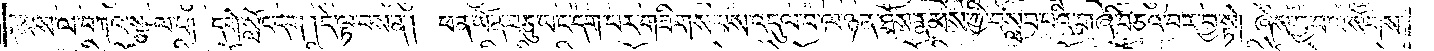རྣམས་ལ་བཀའ་སྩལ་པ། དགེ་སློང་དག །དེ་ལྟ་བས་ན། ཕན་ཡོན་བཅུ་ཡང་དག་པར་གཟིགས་པས་འདུལ་བ་ལ་ཉན་ཐོས་རྣམས་ཀྱི་བསླབ་པའི་གཞི་བཅའ་བར་བྱ་སྟེ། ཞེས་བྱ་བ་ལ་སོགས་
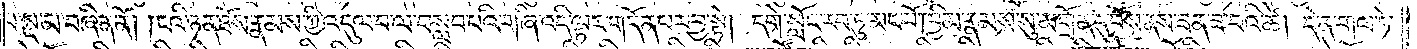པ་སྔ་མ་བཞིན་ནོ། ངའི་ཉན་ཐོས་རྣམས་ཀྱི་འདུལ་བ་ལ་བསླབ་པའི་གཞི་འདི་ལྟར་གདོན་པར་བྱ་སྟེ། དགེ་སློང་རབ་ཏུ་མང་པོ་ཁྱིམ་རྣམས་སུ་མགྲོན་དུ་བོས་ནས་ཟན་ཟ་བའི་ཚེ། དེ་ན་གལ་ཏེ་
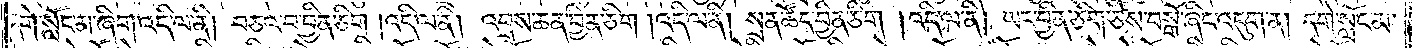དགེ་སློང་མ་ཞིག་འདི་ལ་ནི། བཅའ་བ་བྱིན་ཅིག །འདི་ལ་ནི། འབྲས་ཆན་བྱིན་ཅིག །འདི་ལ་ནི། སྲན་ཚོད་བྱིན་ཅིག །འདི་ལ་ནི། ཡང་བྱིན་ཅིག་ཅེས་བསྒོ་ཞིང་འདུག་ན། དགེ་སློང་མ་
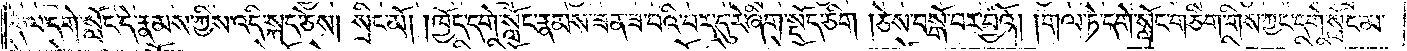དེ་ལ་དགེ་སློང་དེ་རྣམས་ཀྱིས་འདི་སྐད་ཅེས། སྲིང་མོ། །ཁྱོད་དགེ་སློང་རྣམས་ཟན་ཟ་བའི་བར་དུ་རེ་ཞིག་སྡོད་ཅིག །ཅེས་བསྒོ་བར་བྱའོ། །གལ་ཏེ་དགེ་སློང་གཅིག་གིས་ཀྱང་དགེ་སློང་མ་
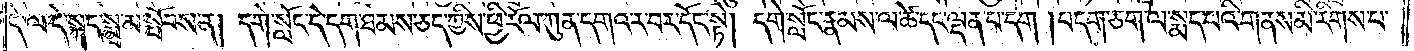དེ་ལ་དེ་སྐད་སྨྲ་མ་སྤོབས་ན། དགེ་སློང་དེ་དག་ཐམས་ཅད་ཀྱིས་ཕྱི་རོལ་ཀུན་དགའ་ར་བར་དོང་སྟེ། དགེ་སློང་རྣམས་ལ་ཚེ་དང་ལྡན་པ་དག །བདག་ཅག་ལ་སྨད་པའི་གནས་མི་རིགས་པ་
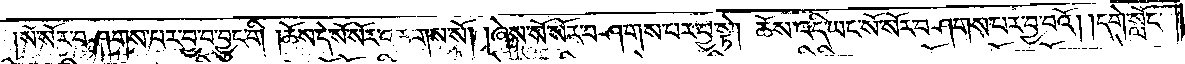སོ་སོར་བཤགས་པར་བྱ་བ་བྱུང་གི །ཆོས་དེ་སོ་སོར་འཆགས་སོ། །ཞེས་སོ་སོར་བཤགས་པར་བྱ་སྟེ། ཆོས་འདི་ཡང་སོ་སོར་བཤགས་པར་བྱ་བའོ། །དགེ་སློང་
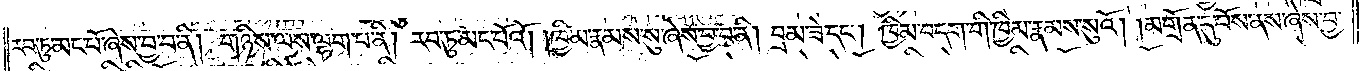རབ་ཏུ་མང་པོ་ཞེས་བྱ་བ་ནི། །གཉིས་ལས་ལྷག་པ་ནི། རབ་ཏུ་མང་པོའོ། །ཁྱིམ་རྣམས་སུ་ཞེས་བྱ་བ་ནི། བྲམ་ཟེ་དང༌། ཁྱིམ་བདག་གི་ཁྱིམ་རྣམས་སུའོ། །མགྲོན་དུ་བོས་ནས་ཞེས་བྱ་
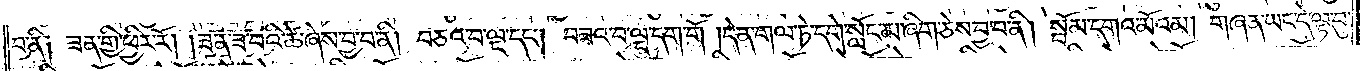བ་ནི། ཟན་གྱི་ཕྱིར་རོ། །ཟན་ཟ་བའི་ཚེ་ཞེས་བྱ་བ་ནི། བཅའ་བ་ལྔ་དང༌། བཟའ་བ་ལྔ་དག་གོ །དེ་ན་གལ་ཏེ་དགེ་སློང་མ་ཞིག་ཅེས་བྱ་བ་ནི། སྦོམ་དགའ་མོའམ། གཞན་ཡང་དེ་ལྟ་བུ་
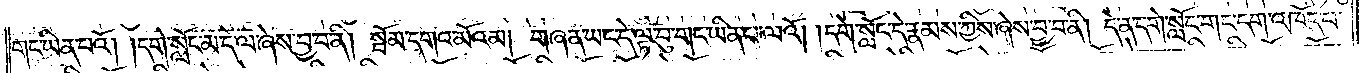གང་ཡིན་པའོ། །དགེ་སློང་མ་དེ་ལ་ཞེས་བྱ་བ་ནི། སྦོམ་དགའ་མོའམ། གཞན་ཡང་དེ་ལྟ་བུ་གང་ཡིན་པ་ལའོ། །དགེ་སློང་དེ་རྣམས་ཀྱིས་ཞེས་བྱ་བ་ནི། དེ་ན་དགེ་སློང་གང་དག་འཁོད་པ་
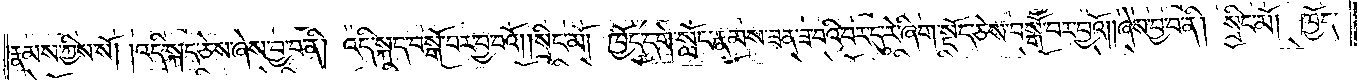རྣམས་ཀྱིས་སོ། །འདི་སྐད་ཅེས་ཞེས་བྱ་བ་ནི། འདི་སྐད་བསྒོ་བར་བྱ་བའོ། །སྲིང་མོ། ཁྱོད་དགེ་སློང་རྣམས་ཟན་ཟ་བའི་བར་དུ་རེ་ཞིག་སྡོད་ཅེས་བསྒོ་བར་བྱའོ། །ཞེས་བྱ་བ་ནི། སྲིང་མོ། ཁྱོད་
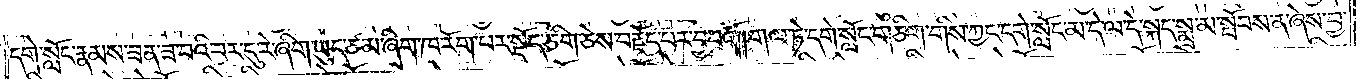དགེ་སློང་རྣམས་ཟན་ཟ་བའི་བར་དུ་རེ་ཞིག་ཡུད་ཙམ་ཞིག་ཁ་རོག་པར་སྡོད་ཅིག་ཅེས་བརྗོད་པར་བྱ་བའོ། །གལ་ཏེ་དགེ་སློང་གཅིག་གིས་ཀྱང་དགེ་སློང་མ་དེ་ལ་དེ་སྐད་སྨྲ་མ་སྤོབས་ན་ཞེས་བྱ་
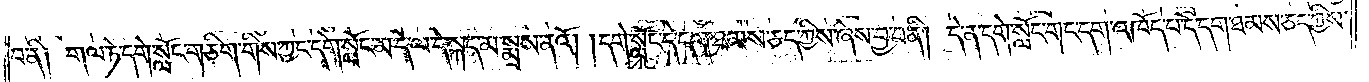བ་ནི། གལ་ཏེ་དགེ་སློང་གཅིག་གིས་ཀྱང་དགེ་སློང་མ་དེ་ལ་དེ་སྐད་མ་སྨྲས་ནའོ། །དགེ་སློང་དེ་དག་ཐམས་ཅད་ཀྱིས་ཞེས་བྱ་བ་ནི། དེ་ན་དགེ་སློང་གང་དག་འཁོད་པ་དེ་དག་ཐམས་ཅད་ཀྱིས་
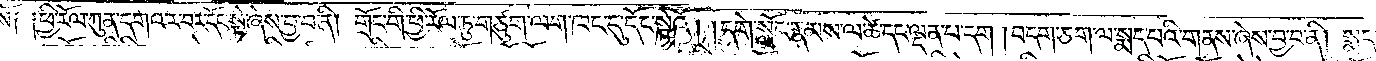སོ། །ཕྱི་རོལ་ཀུན་དགའ་ར་བར་དོང་སྟེ་ཞེས་བྱ་བ་ནི། གྲོང་གི་ཕྱི་རོལ་ཏུ་གཙུག་ལག་ཁང་དུ་དོང་སྟེའོ། །དགེ་སློང་རྣམས་ལ་ཚེ་དང་ལྡན་པ་དག །བདག་ཅག་ལ་སྨད་པའི་གནས་ཞེས་བྱ་བ་ནི། སྨད་
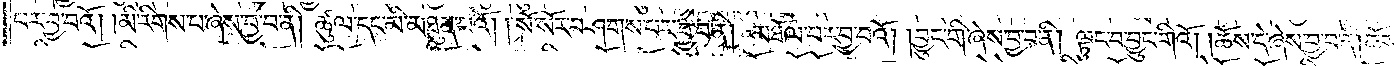པར་བྱ་བའོ། །མི་རིགས་པ་ཞེས་བྱ་བ་ནི། ཚུལ་དང་མི་མཐུན་པའོ། །སོ་སོར་བཤགས་པར་བྱ་བ་ནི། མཐོལ་བར་བྱ་བའོ། །བྱུང་གི་ཞེས་བྱ་བ་ནི། ལྟུང་བ་བྱུང་གིའོ། །ཆོས་དེ་ཞེས་བྱ་བ་ནི། ཆོས་
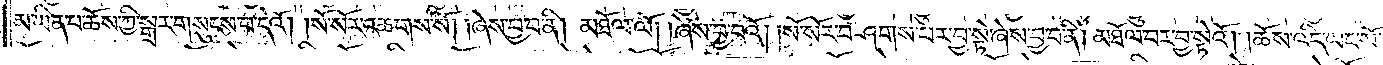མ་ཡིན་པ་ཆོས་ཀྱི་སྒྲར་གསུངས་པ་དེའོ། །སོ་སོར་འཆགས་སོ། །ཞེས་བྱ་བ་ནི། མཐོལ་ལོ། །ཞེས་བྱ་བའོ། །སོ་སོར་བཤགས་པར་བྱ་སྟེ་ཞེས་བྱ་བ་ནི། མཐོལ་བར་བྱ་སྟེའོ། །ཆོས་འདི་ཡང་སོ་
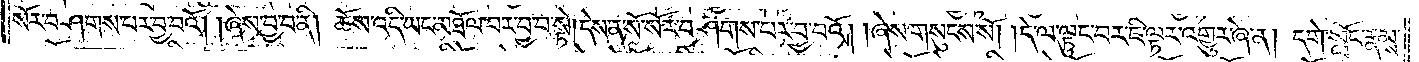སོར་བཤགས་པར་བྱ་བའོ། །ཞེས་བྱ་བ་ནི། ཆོས་འདི་ཡང་མཐོལ་བར་བྱ་བ་སྟེ། དེས་ན་སོ་སོར་བཤགས་པར་བྱ་བའོ། །ཞེས་གསུངས་སོ། །དེ་ལ་ལྟུང་བར་ཇི་ལྟར་འགྱུར་ཞེ་ན། དགེ་སློང་རྣམས་
